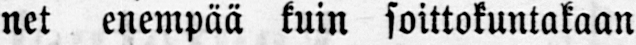net enempää kuin soittokuntakaan
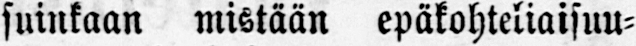suinkaan mistään epäkohteliaisuu-
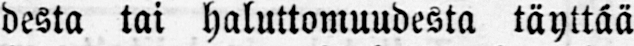desta tai haluttomuudesta täyttää
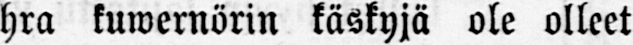hra kuwernörin käskyjä ole olleet
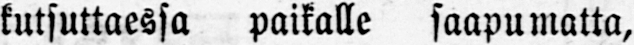kutsuttaessa paikalle saapumatta,
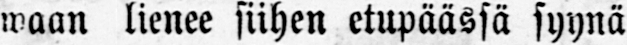waan lienee siihen etupäässä syynä
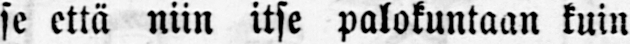se että niin itse palokuntaan kuin
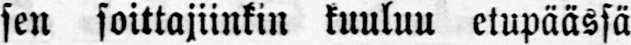sen soittajiinkin kuuluu etupäässä
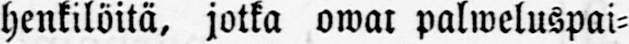henkilöitä, jotka owat palweluspai-
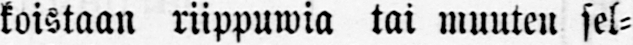koistaan riippuwia tai muuten sel-
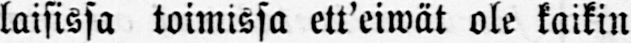laisissa toimissa ett'eiwät ole kaikin
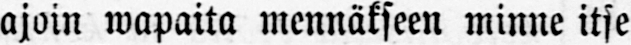ajoin wapaita mennäkseen minne itse
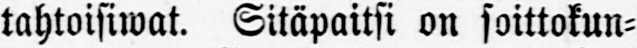tahtoisiwat. Sitäpaitsi on soittokun-
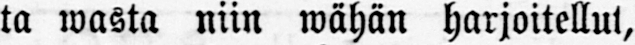ta wasta niin wähän harjoitellut,
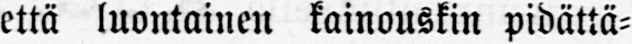että luontainen kainouskin pidättä-
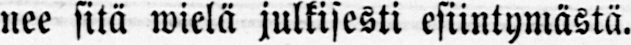nee sitä wielä julkisesti esiintymästä.
